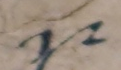༡༩
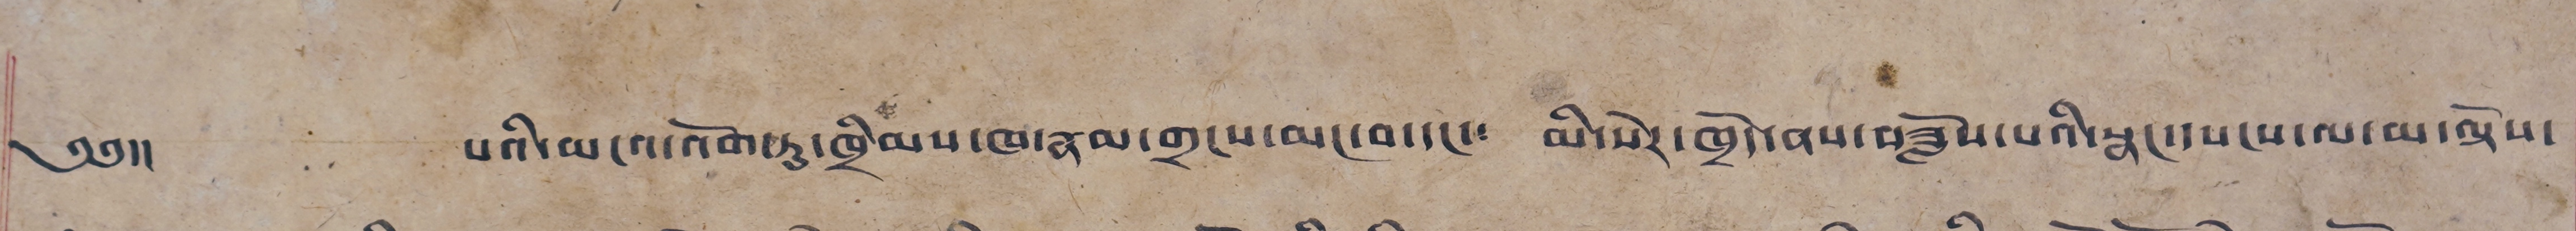༄༅།། པའི་མངའ་འོག་ཏུ་ཁྲིམས་ཁ་རྣམ་གྲངས་མང་བ་དང་༴ མི་སེར་ཁྲོད་ནས་བཟློས་པའི་སྣང་དཔངས་ལ་མ་ལྟོས་
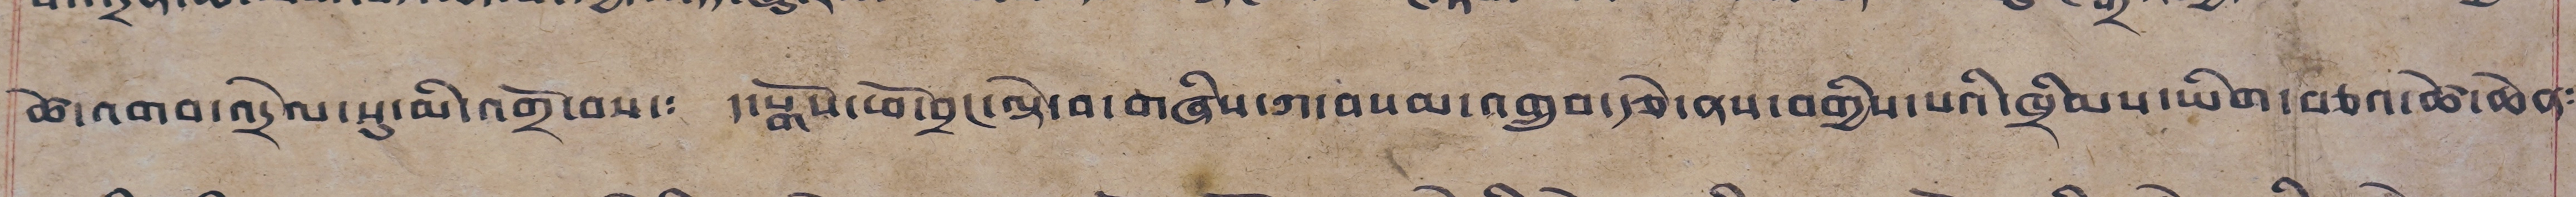ཚེ་འགབ་འདྲེལ་སུ་མི་འགྲོ་བས་༴ ད་སྒོས་ཕོ་བྲང་ལྟེ་བ་གཞིས་ཀ་བསམ་འགྲུབ་རྩེ་ནས་བགྱིས་པའི་ཁྲིམས་ཡིག། བཅའ་ཚེ་ཆེན༴
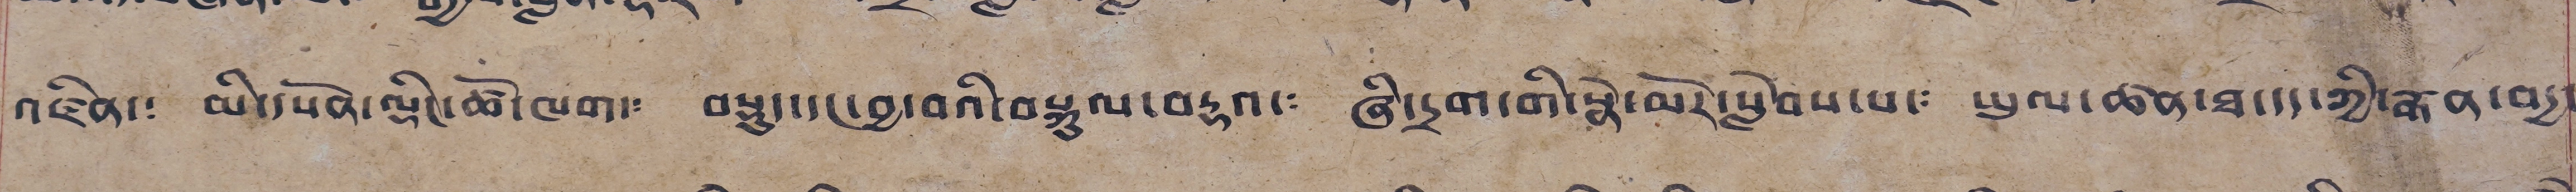འཛིན་༴ མི་དཔོན་ལྡིང་ཚོ་ཁག་༴ བསྡུད་དང་བྱ་བའི་བསྐུལ་བརྡའ་༴ ཞི་དྲག་གི་སྣེ་མོར་སླེབས་པ་༴ ཡུལ་ཚན་ཐ་དད་ཀྱི་རྒན་བདྱ་
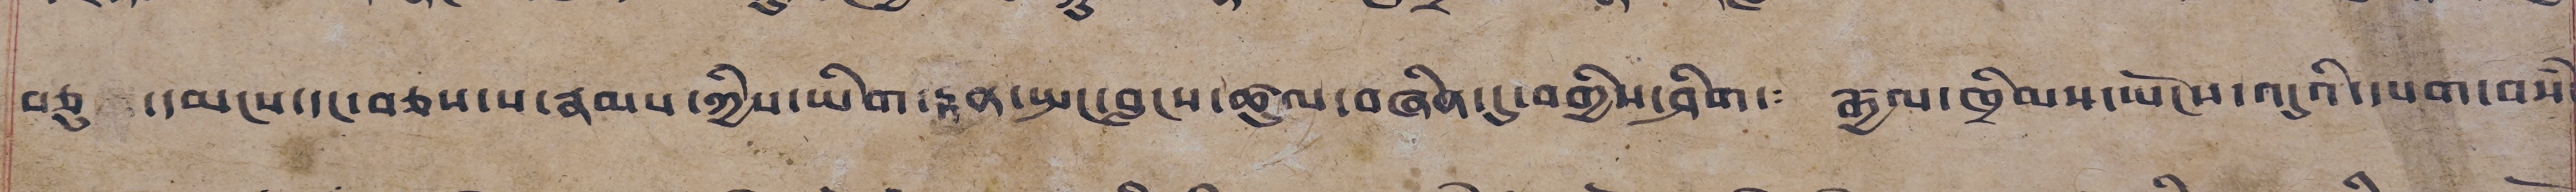བཅུ་དམངས་དང་བཅས་པ་རྣམས་ཀྱིས་ཡིག་རྟན་སྤང་བླངས་ཚུལ་བཞིན་དུ་བགྱིས་ཤིག་༴ རྒྱལ་ཁྲིམས་ཡོངས་འདུའི་དཔག་བསཾ་
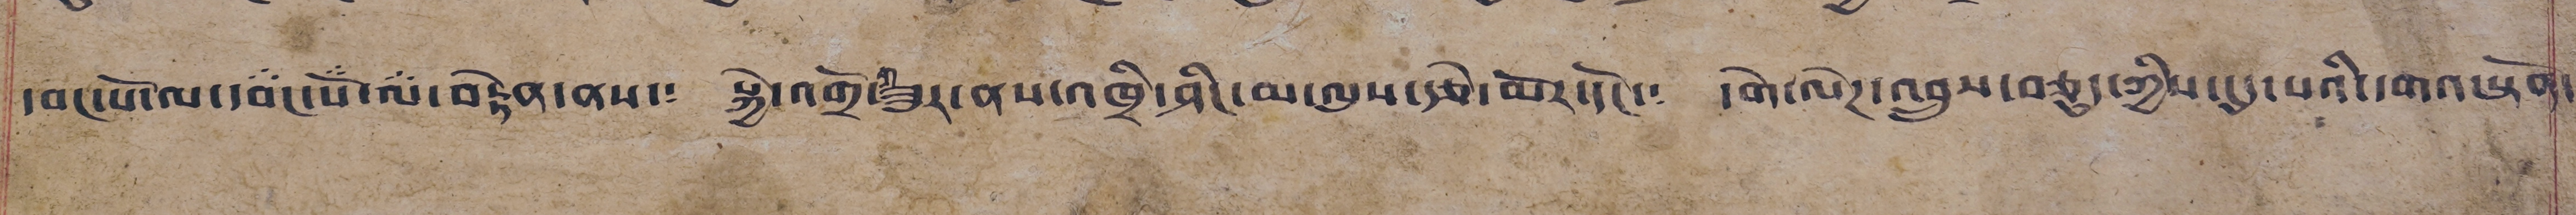དབང་པོ་ལ་དབང་པོ་ལ་བརྟེན་ནས་༴ སྐྱེ་འགྲོ་གཟུར་ནས་འཁྲི་ཤིང་མ་ལུས་རྩེ་མོར་དོང་༴ དགེ་ལེཊ་འབྲུས་བཅུད་ཀྱིས་དུད་པའི་དགའ་སྟོན་
